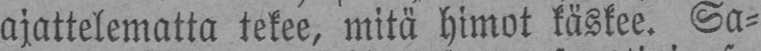ajattelematta tekee, mitä himot käskee. Sa-
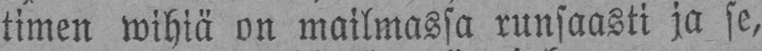timen wihiä on mailmassa runsaasti ja se,
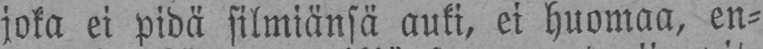joka ei pidä silmiänsä auki, ei huomaa, en-
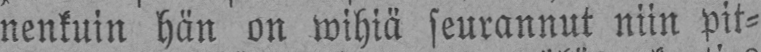nenkuin hän on wihiä seurannut niin pit-
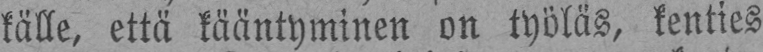källe, että kääntyminen on työläs, kenties
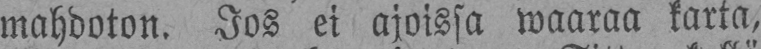mahdoton. Jos ei ajoissa waaraa karta,
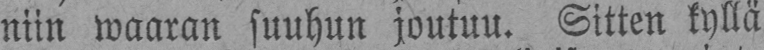niin waaran suuhun joutuu. Sitten kyllä
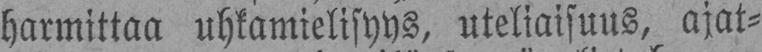harmittaa uhkamielisyys, uteliaisuus, ajat-
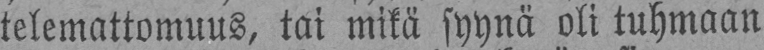telemattomuus, tai mikä syynä oli tuhmaan
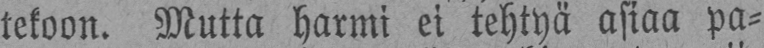tekoon. Mutta harmi ei tehtyä asiaa pa-
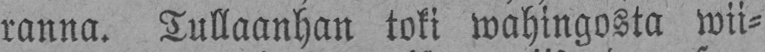ranna. Tullaanhan toki wahingosta wii-
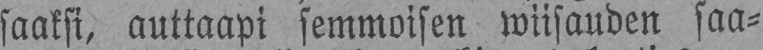saaksi, auttaapi semmoisen wiisauden saa-
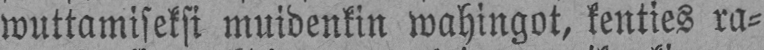wuttamiseksi muidenkin wahingot, kenties ra-
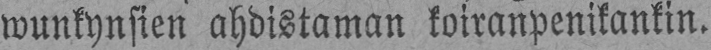wunkynsien ahdistaman koiranpenikankin.
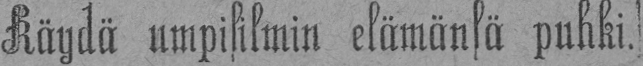Käydä umpisilmin elämänsä puhki.
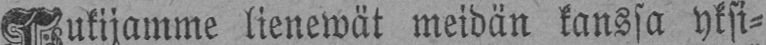Tukijamme lienewät meidän kanssa yksi-
